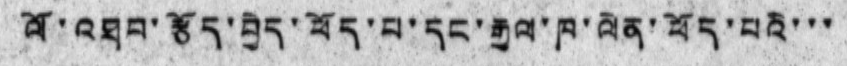ལོ་འཐབ་རྩོད་བྱེད་ཕོད་པ་དང་རྒྱལ་ཁ་ལེན་ཕོད་པའི་་་
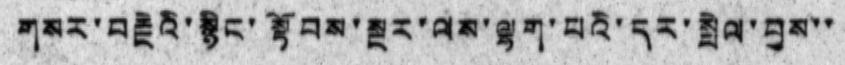གསར་བརྗེའི་སྙིང་སྟོབས་སྔར་ལས་ལྷག་པའི་དར་སྤེལ་བྱས་་
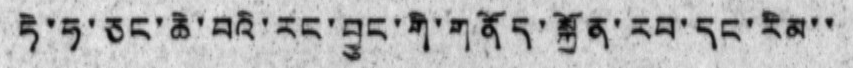ཏེ་ཧ་ཅང་ཆེ་བའི་རང་བྱུང་གི་གནོད་སྐྱོན་རབ་དང་རིམ་་
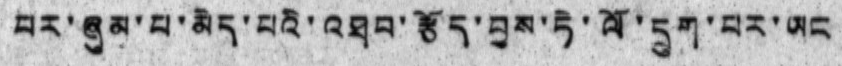པར་ཞུམ་པ་མེད་པའི་འཐབ་རྩོད་བྱས་ཏེ་ལོ་དྲུག་པར་ཡང
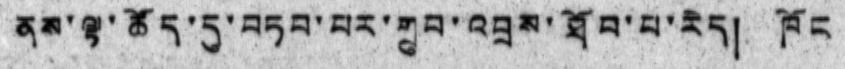ནས་ལྟ་ཚོད་དུ་བཏབ་པར་གྲུབ་འབྲས་ཐོབ་པ་རེད། ཁོང
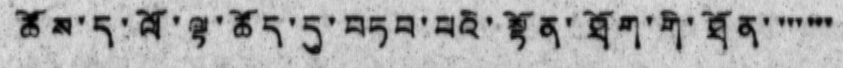ཚོས་ད་ལོ་ལྟ་ཚོད་དུ་བཏབ་པའི་སྟོན་ཐོག་གི་ཐོན་ ་་་་་་
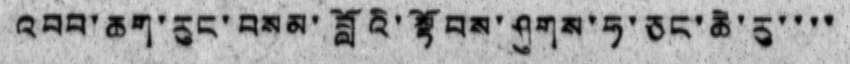འབབ་ཆག་རུང་བསམ་བློའི་སྟོབས་ཤུགས་ཧ་ཅང་ཆེ་རུ་་་་
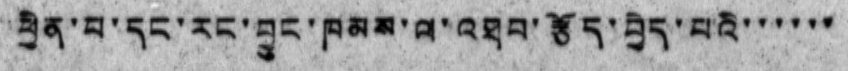ཕྱིན་པ་དང་རང་བྱུང་ཁམས་ལ་འཐབ་རྩོད་བྱེད་པའི་་་་་་
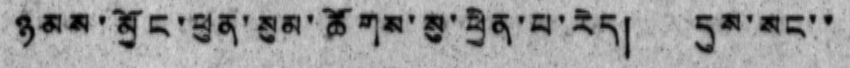ཉམས་མྱོང་ཕུན་སུམ་ཚོགས་སུ་ཕྱིན་པ་རེད། དུས་སང་་
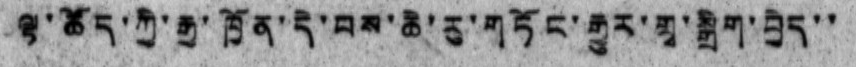ལྟ་ཚོད་ཀྱི་རྒྱ་ཁྱོན་དེ་བས་ཆེ་རུ་གཏོང་རྒྱུར་གྲྭ་སྒྲིག་བྱེད་་
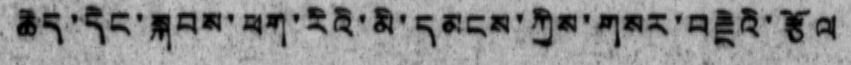ཆེད་དེང་སྐབས་ཕག་རིའི་མི་དམངས་ཀྱིས་གསར་བརྗེའི་རྩོལ
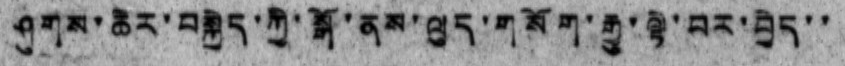ཤུགས་ཆེར་བསྐྱེད་ཀྱི་སྒོ་ནས་ལུད་གསོག་རྒྱུ་ལྟེ་བར་བྱེད་་
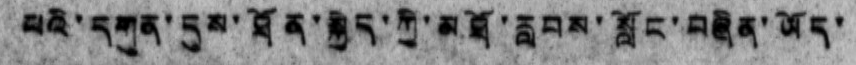པའི་དགུན་དུས་ཐོན་སྐྱེད་ཀྱི་མཐོ་རླབས་སློང་བཞིན་ཡོད་
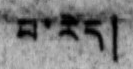པ་རེད།
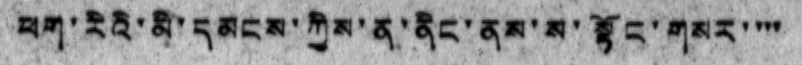ཕག་རིའི་མི་དམངས་ཀྱིས་ན་ནིང་ནས་ས་སྟོང་གསར་་་་
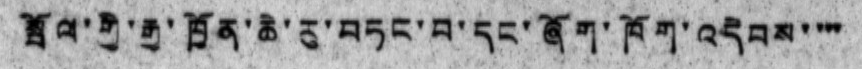སྦོལ་གྱི་རྒྱ་ཁྱོན་ཆེ་རུ་བཏང་བ་དང་ཞོག་ཁོག་འདེབས་་་་
